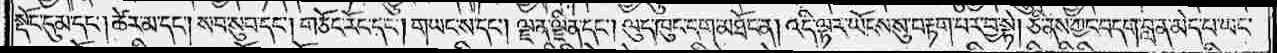སྡོང་དུམ་དང༌། ཚེར་མ་དང༌། སབ་སུབ་དང༌། གཅོང་རོང་དང༌། གཡང་ས་དང༌། ལྗན་ལྗིན་དང༌། ལུད་ཁུང་དག་མཐོང་ན། འདི་ལྟར་ཡོངས་སུ་བརྟག་པར་བྱ་སྟེ། ཅི་ནས་ཀྱང་བདག་བླ་ན་མེད་པ་ཡང་
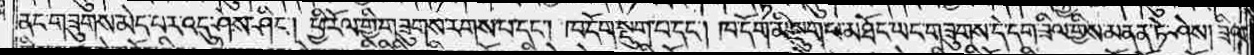ནང་གཟུགས་མེད་པར་འདུ་ཤེས་ཤིང༌། ཕྱི་རོལ་གྱི་གཟུགས་རགས་པ་དང༌། ཁ་དོག་སྡུག་པ་དང༌། ཁ་དོག་མི་སྡུག་པ་མཐོང་ཡང་གཟུགས་དེ་དག་ཟིལ་གྱིས་མནན་ཏེ་ཤེས། ཟིལ་
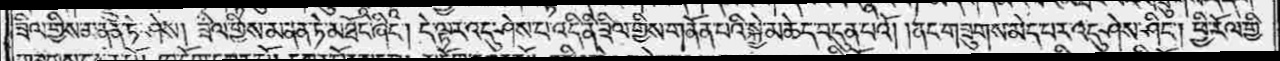ཟིལ་གྱིས་མནན་ཏེ་ཤེས། ཟིལ་གྱིས་མནན་ཏེ་མཐོང་ཞིང༌། དེ་ལྟར་འདུ་ཤེས་པ་འདི་ནི་ཟིལ་གྱིས་གནོན་པའི་སྐྱེ་མཆེད་བདུན་པའོ། །ནང་གཟུགས་མེད་པར་འདུ་ཤེས་ཤིང༌། ཕྱི་རོལ་གྱི་
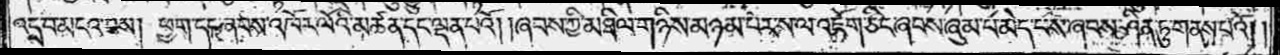འདྲ་བ་མངའ་བས། ཕྱག་དང་ཞབས་འཁོར་ལོའི་མཚན་དང་ལྡན་པའོ། །ཞབས་ཀྱི་མཐིལ་གཉིས་མཉམ་པར་ས་ལ་འཇོག་ཅིང་ཞབས་ཞུམ་པ་མེད་པས་ཞབས་ཤིན་ཏུ་གནས་པའོ། །
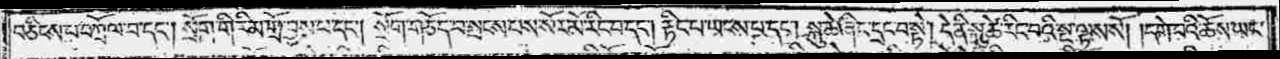བཅིངས་པ་བཀྲོལ་བ་དང༌། སྲོག་གི་རིམ་གྲོ་བྱས་པ་དང༌། སྲོག་གཅོད་པ་སྤངས་པས་སོར་མོ་རིང་བ་དང༌། རྟིང་པ་ཡངས་པ་དང༌། སྐུ་ཆེ་ཞིང་དྲང་བ་སྟེ། དེ་ནི་སྐུ་ཚེ་རིང་བའི་སྔ་ལྟས་སོ། །དགེ་བའི་ཆོས་ཡང་
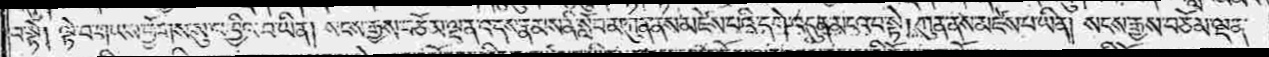བ་སྟེ། ལྟེ་བ་གཡས་ཕྱོགས་སུ་འཁྱིལ་བ་ཡིན། སངས་རྒྱས་བཅོམ་ལྡན་འདས་རྣམས་ནི་སློབ་མ་ཀུན་ནས་མཛེས་པའི་དགེ་འདུན་མངའ་བ་སྟེ། ཀུན་ནས་མཛེས་པ་ཡིན། སངས་རྒྱས་བཅོམ་ལྡན་
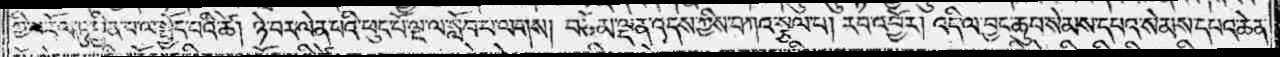ཀྱི་ཕ་རོལ་ཏུ་ཕྱིན་པ་ལ་སྤྱོད་པའི་ཚེ། ཉེ་བར་ལེན་པའི་ཕུང་པོ་ལྔ་ལ་སློབ་པ་ལགས། བཅོམ་ལྡན་འདས་ཀྱིས་བཀའ་སྩལ་པ། རབ་འབྱོར། འདི་ལ་བྱང་ཆུབ་སེམས་དཔའ་སེམས་དཔའ་ཆེན་
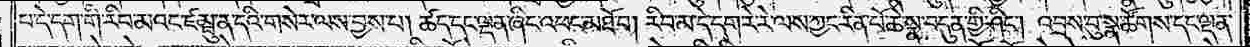པ་དེ་དག་གི་རིབ་མའང་ཛམྦུ་ན་དའི་གསེར་ལས་བྱས་པ། ཚད་དང་ལྡན་ཞིང་འཕང་མཐོ་བ། རིབ་མ་དེ་དག་རེ་རེ་ལས་ཀྱང་རིན་པོ་ཆེ་སྣ་བདུན་གྱི་ཤིང༌། འབྲས་བུ་སྣ་ཚོགས་དང་ལྡན་
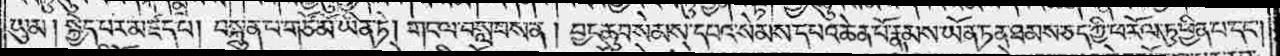ཡུམ། སྐྱེད་པར་མཛད་པ། བསྐྲུན་པ་གཙོ་མོ་ཡིན་ཏེ། གང་ལ་བསླབས་ན། བྱང་ཆུབ་སེམས་དཔའ་སེམས་དཔའ་ཆེན་པོ་རྣམས་ཡོན་ཏན་ཐམས་ཅད་ཀྱི་ཕ་རོལ་ཏུ་ཕྱིན་པ་དང༌།
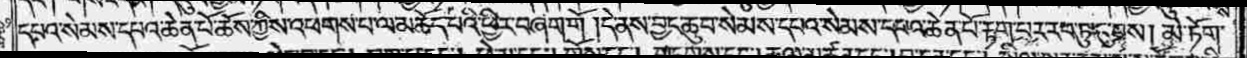དཔའ་སེམས་དཔའ་ཆེན་པོ་ཆོས་ཀྱིས་འཕགས་པ་ལ་མཆོད་པའི་ཕྱིར་བཞག་གོ །དེ་ནས་བྱང་ཆུབ་སེམས་དཔའ་སེམས་དཔའ་ཆེན་པོ་རྟག་པར་རབ་ཏུ་ངུ་བས། མེ་ཏོག་
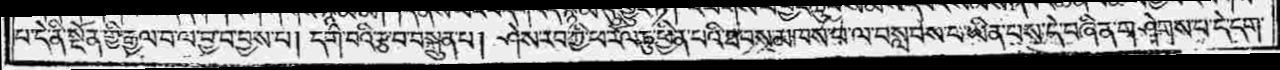པ་དེ་ནི་སྔོན་གྱི་རྒྱལ་བ་ལ་བྱ་བ་བྱས་པ། དགེ་བའི་རྩ་བ་བསྐྲུན་པ། ཤེས་རབ་ཀྱི་ཕ་རོལ་ཏུ་ཕྱིན་པའི་ཐབས་མཁས་པ་ལ་བསླབས་པ་ཡིན་པས་དེ་བཞིན་གཤེགས་པ་དེ་དག་
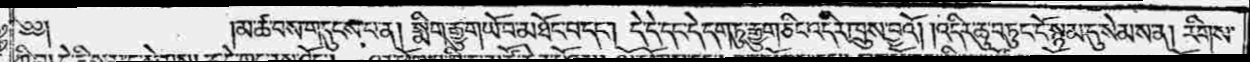༄༅༎མ་ཚ་བས་གདུངས་པ་ན། སྨིག་རྒྱུ་གཡོ་བ་མཐོང་བ་དང༌། དེ་དེ་དང་དེ་དག་ཏུ་རྒྱུག་ཅིང་འདིར་ཁྲུས་བྱའོ། །འདིར་ཆུ་བཏུང་ངོ་སྙམ་དུ་སེམས་ན། རིགས་
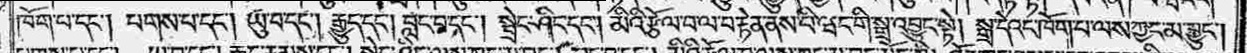ཁོག་པ་དང༌། པགས་པ་དང༌། ཡུ་བ་དང༌། རྒྱུད་དང༌། བླང་བ་དང༌། སྦྲེང་ཤིང་དང༌། མིའི་རྩོལ་པ་ལ་བརྟེན་ནས་པི་ཝང་གི་སྒྲ་འབྱུང་སྟེ། སྒྲ་དེའང་ཁོག་པ་ལས་ཀྱང་མ་བྱུང༌།
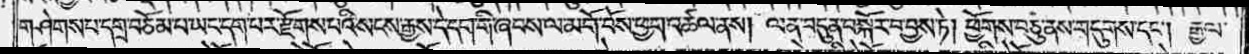གཤེགས་པ་དགྲ་བཅོམ་པ་ཡང་དག་པར་རྫོགས་པའི་སངས་རྒྱས་དེ་དག་གི་ཞབས་ལ་མགོ་བོས་ཕྱག་འཚལ་ནས། ལན་བདུན་བསྐོར་བ་བྱས་ཏེ། ཕྱོགས་བཅུ་ནས་གདུགས་དང༌། རྒྱལ་
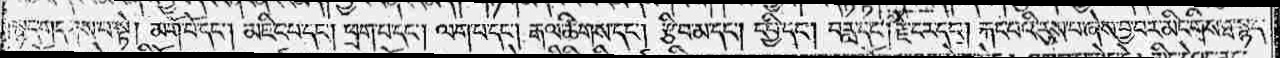སྙད་གདགས་པ་སྟེ། མགོ་བོ་དང༌། མཇིང་པ་དང༌། ཕྲག་པ་དང༌། ལག་པ་དང༌། རྒལ་ཚིགས་དང༌། རྩིབ་མ་དང༌། དཔྱི་དང༌། བརླ་དང༌། རྗེ་ངར་དང༌། རྐང་པའི་རུས་པ་ཞེས་བྱ་བར་མིང་གིས་ཐ་སྙད་
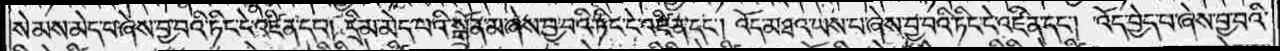སེམས་མེད་པ་ཞེས་བྱ་བའི་ཏིང་ངེ་འཛིན་དང༌། དྲི་མ་མེད་པའི་སྒྲོན་མ་ཞེས་བྱ་བའི་ཏིང་ངེ་འཛིན་དང༌། འོད་མཐའ་ཡས་པ་ཞེས་བྱ་བའི་ཏིང་ངེ་འཛིན་དང༌། འོད་བྱེད་པ་ཞེས་བྱ་བའི་
